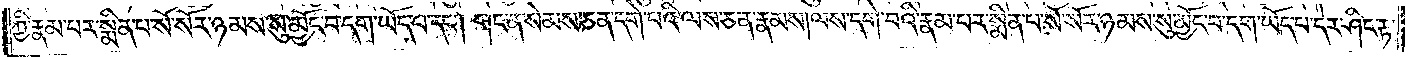ཀྱི་རྣམ་པར་སྨིན་པ་སོ་སོར་ཉམས་སུ་མྱོང་བ་དག་ཡོད་པ་དང༌། གང་ན་སེམས་ཅན་དགེ་བའི་ལས་ཅན་རྣམས། ལས་དགེ་བའི་རྣམ་པར་སྨིན་པ་སོ་སོར་ཉམས་སུ་མྱོང་བ་དག་ཡོད་པ་དེར་ཤིང་རྟ་
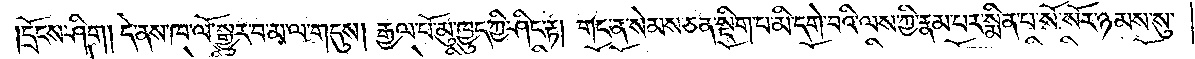།དྲོངས་ཤིག །དེ་ནས་ཁ་ལོ་སྒྱུར་བ་མ་ལ་གདུས། རྒྱལ་པོ་མུ་ཁྱུད་ཀྱི་ཤིང་རྟ། གང་ན་སེམས་ཅན་སྡིག་པ་མི་དགེ་བའི་ལས་ཀྱི་རྣམ་པར་སྨིན་པ་སོ་སོར་ཉམས་སུ་
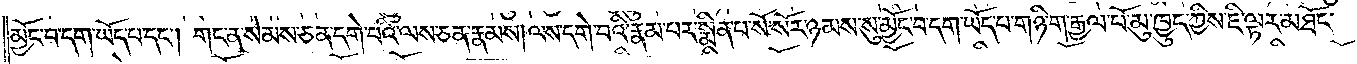མྱོང་བ་དག་ཡོད་པ་དང༌། གང་ན་སེམས་ཅན་དགེ་བའི་ལས་ཅན་རྣམས། ལས་དགེ་བའི་རྣམ་པར་སྨིན་པ་སོ་སོར་ཉམས་སུ་མྱོང་བ་དག་ཡོད་པ་གཉི་ག་རྒྱལ་པོ་མུ་ཁྱུད་ཀྱིས་ཇི་ལྟར་མཐོང་
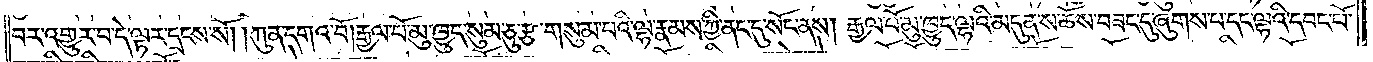བར་འགྱུར་བ་དེ་ལྟར་དྲངས་སོ། །ཀུན་དགའ་བོ། རྒྱལ་པོ་མུ་ཁྱུད་སུམ་ཅུ་རྩ་གསུམ་པའི་ལྷ་རྣམས་ཀྱི་ནང་དུ་སོང་ནས། རྒྱལ་པོ་མུ་ཁྱུད་ལྷའི་མདུན་ས་ཆོས་བཟང་དུ་ཞུགས་པ་དང་ལྷའི་དབང་པོ་
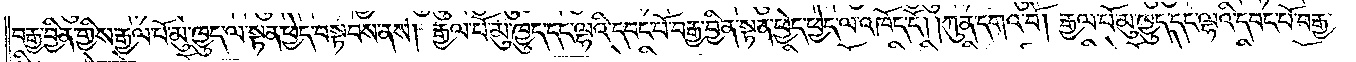བརྒྱ་བྱིན་གྱིས་རྒྱལ་པོ་མུ་ཁྱུད་ལ་སྟན་ཕྱེད་བསྟབས་ནས། རྒྱལ་པོ་མུ་ཁྱུད་དང་ལྷའི་དབང་པོ་བརྒྱ་བྱིན་སྟན་ཕྱེད་ཕྱེད་ལ་འཁོད་དོ། །ཀུན་དགའ་བོ། རྒྱལ་པོ་མུ་ཁྱུད་དང་ལྷའི་དབང་པོ་བརྒྱ་
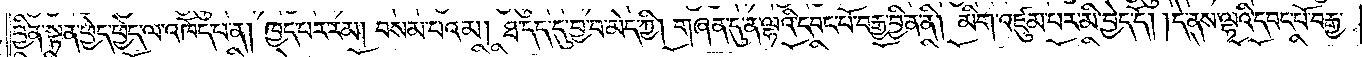བྱིན་སྟན་ཕྱེད་ཕྱེད་ལ་འཁོད་པ་ན། ཁྱད་པར་རམ། བསམ་པའམ། ཐ་དད་དུ་བྱ་བ་མེད་ཀྱི། གཞན་དུ་ན་ལྷའི་དབང་པོ་བརྒྱ་བྱིན་ནི། མིག་འཛུམ་པར་མི་བྱེད་དོ། །དེ་ནས་ལྷའི་དབང་པོ་བརྒྱ་
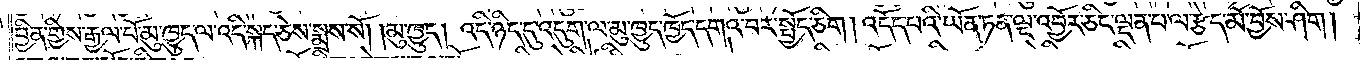བྱིན་གྱིས་རྒྱལ་པོ་མུ་ཁྱུད་ལ་འདི་སྐད་ཅེས་སྨྲས་སོ། །མུ་ཁྱུད། འདི་ཉིད་དུ་འདུག་ལ་མུ་ཁྱུད་ཁྱོད་དགའ་བར་སྤྱོད་ཅིག །འདོད་པའི་ཡོན་ཏན་ལྔ་འབྱོར་ཅིང་ལྡན་པ་ལ་རྩེད་མོ་བྱོས་ཤིག།
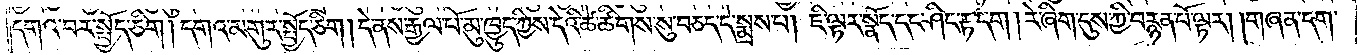དགའ་བར་སྤྱོད་ཅིག །དགའ་མགུར་སྤྱོད་ཅིག །དེ་ནས་རྒྱལ་པོ་མུ་ཁྱུད་ཀྱིས་དེའི་ཚེ་ཚིགས་སུ་བཅད་དེ་སྨྲས་པ། ཇི་ལྟར་སྣོད་དང་ཤིང་རྟ་དག །རེ་ཞིག་དུས་ཀྱི་བརྙན་པོ་ལྟར། །གཞན་དག་
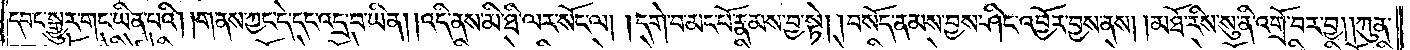དབང་སྒྱུར་གང་ཡིན་པའི། །གནས་ཀྱང་དེ་དང་འདྲ་བ་ཡིན། །འདི་ནས་མི་ཐི་ལར་སོང་ལ། །དགེ་བ་མང་པོ་རྣམས་བྱ་སྟེ། །བསོད་ནམས་བྱས་ཤིང་འབྱོར་བྱས་ནས། །མཐོ་རིས་སུ་ནི་འགྲོ་བར་བྱ། །ཀུན་
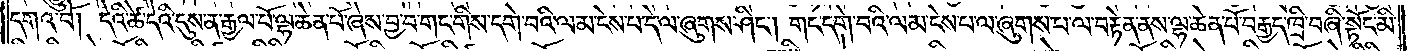དགའ་བོ། དེའི་ཚེ་དེའི་དུས་ན་རྒྱལ་པོ་ལྷ་ཆེན་པོ་ཞེས་བྱ་བ་གང་གིས་དགེ་བའི་ལམ་ངེས་པ་དེ་ལ་ཞུགས་ཤིང༌། གང་དགེ་བའི་ལམ་ངེས་པ་ལ་ཞུགས་པ་ལ་བརྟེན་ནས་ལྷ་ཆེན་པོ་བརྒྱད་ཁྲི་བཞི་སྟོང་མི་
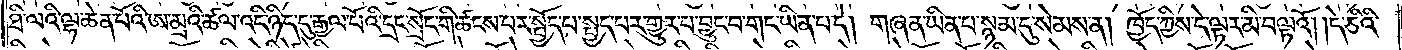ཐི་ལའི་ལྷ་ཆེན་པོའི་ཨ་མྲའི་ཚལ་འདི་ཉིད་དུ་རྒྱལ་པོའི་དྲང་སྲོང་གི་ཚངས་པར་སྤྱོད་པ་སྤྱད་པར་གྱུར་པ་བྱུང་བ་གང་ཡིན་པ་དེ། གཞན་ཡིན་པ་སྙམ་དུ་སེམས་ན། ཁྱོད་ཀྱིས་དེ་ལྟར་མི་བལྟའོ། །དེ་ཅིའི་
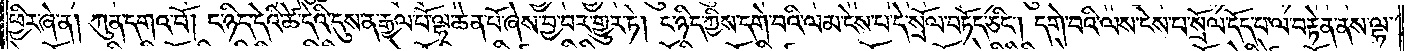ཕྱིར་ཞེ་ན། ཀུན་དགའ་བོ། ང་ཉིད་དེའི་ཚེ་དེའི་དུས་ན་རྒྱལ་པོ་ལྷ་ཆེན་པོ་ཞེས་བྱ་བར་གྱུར་ཏེ། ང་ཉིད་ཀྱིས་དགེ་བའི་ལམ་ངེས་པ་དེ་སྲོལ་བཏོད་ཅིང༌། དགེ་བའི་ལས་ངེས་པ་སྲོལ་དོད་པ་ལ་བརྟེན་ནས་ལྷ་
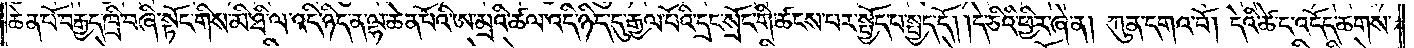ཆེན་པོ་བརྒྱད་ཁྲི་བཞི་སྟོང་གིས་མི་ཐི་ལ་འདི་ཉིད་ན་ལྷ་ཆེན་པོའི་ཨ་མྲའི་ཚལ་འདི་ཉིད་དུ་རྒྱལ་པོའི་དྲང་སྲོང་གི་ཚངས་པར་སྤྱོད་པ་སྤྱད་དོ། །དེ་ཅིའི་ཕྱིར་ཞེ་ན། ཀུན་དགའ་བོ། །དེའི་ཚེ་ང་འདོད་ཆགས་
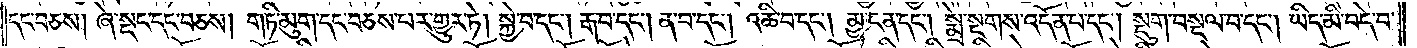དང་བཅས། ཞེ་སྡང་དང་བཅས། གཏི་མུག་དང་བཅས་པར་གྱུར་ཏེ། སྐྱེ་བ་དང༌། རྒ་བ་དང༌། ན་བ་དང༌། འཆི་བ་དང༌། མྱ་ངན་དང༌། སྨྲེ་སྔགས་འདོན་པ་དང༌། སྡུག་བསྔལ་བ་དང༌། ཡིད་མི་བདེ་བ་
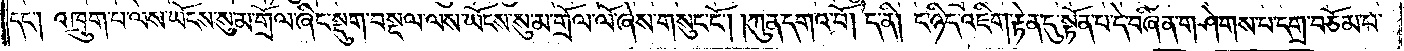དང༌། འཁྲུག་པ་ལས་ཡོངས་སུ་མ་གྲོལ་ཞིང་སྡུག་བསྔལ་ལས་ཡོངས་སུ་མ་གྲོལ་ལོ་ཞེས་གསུང་ངོ༌། །ཀུན་དགའ་བོ། ད་ནི། ང་ཉིད་འཇིག་རྟེན་དུ་སྟོན་པ་དེ་བཞིན་གཤེགས་པ་དགྲ་བཅོམ་པ་
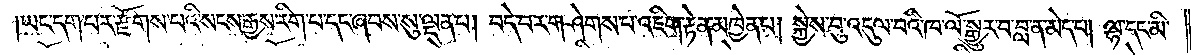ཡང་དག་པར་རྫོགས་པའི་སངས་རྒྱས་རིག་པ་དང་ཞབས་སུ་ལྡན་པ། བདེ་བར་གཤེགས་པ་འཇིག་རྟེན་མཁྱེན་པ། སྐྱེས་བུ་འདུལ་བའི་ཁ་ལོ་སྒྱུར་བ་བླ་ན་མེད་པ། ལྷ་དང་མི་
